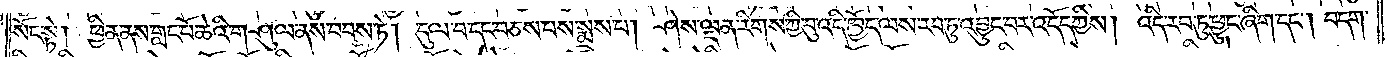སོང་སྟེ། ཕྱིན་ནས་གླང་པོ་ཆེའི་གཤུལ་ནས་བབས་ཏེ། དུལ་བ་དང་བཅས་པས་སྨྲས་པ། ཤེས་ལྡན་རིགས་ཀྱི་བུ་འདི་ཁྱོད་ལས་རབ་ཏུ་འབྱུང་བར་འདོད་ཀྱིས། འདི་རབ་ཏུ་ཕྱུང་ཞིག་དང༌། བདག་
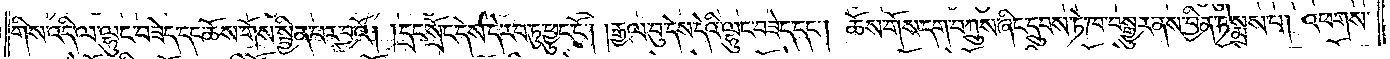གིས་འདི་ལ་ལྷུང་བཟེད་དང་ཆོས་གོས་སྦྱིན་པར་བྱའོ། །དྲང་སྲོང་དེས་དེ་རབ་ཏུ་ཕྱུང་ངོ༌། །རྒྱལ་བུ་དེས་དེའི་ལྷུང་བཟེད་དང༌། ཆོས་གོས་དག་བཀྲུས་ཞིང་དྲུབས་ཏེ་ཁ་བསྒྱུར་ནས་བྱིན་ཏེ་སྨྲས་པ། འཕགས་
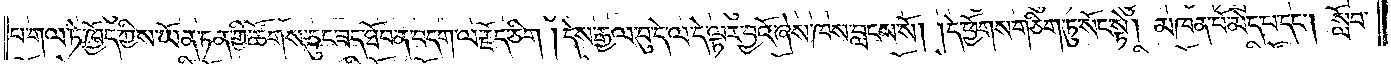པ་གལ་ཏེ་ཁྱོད་ཀྱིས་ཡོན་ཏན་གྱི་ཚོགས་ཅུང་ཟད་ཐོབ་ན་བདག་ལ་རྗོད་ཅིག །དེས་རྒྱལ་བུ་དེ་ལ་དེ་ལྟར་བྱའོ་ཞེས་ཁས་བླངས་སོ། །དེ་ཕྱོགས་གཅིག་ཏུ་སོང་སྟེ། མཁན་པོ་མེད་པ་དང༌། སློབ་
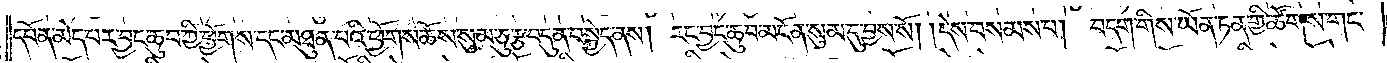དཔོན་མེད་པར་བྱང་ཆུབ་ཀྱི་ཕྱོགས་དང་མཐུན་པའི་ཕྱོགས་ཆོས་སུམ་ཅུ་རྩ་བདུན་བསྐྱེད་ནས། རང་བྱང་ཆུབ་མངོན་སུམ་དུ་བྱས་སོ། །དེས་བསམས་པ། བདག་གིས་ཡོན་ཏན་གྱི་ཚོགས་གང་
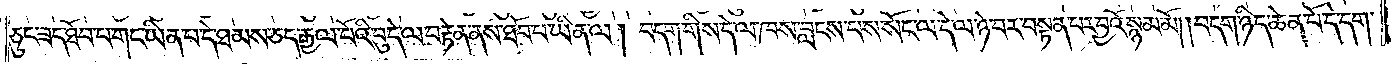ཅུང་ཟད་ཐོབ་པ་གང་ཡིན་པ་དེ་ཐམས་ཅད་རྒྱལ་པོའི་བུ་དེ་ལ་བརྟེན་ནས་ཐོབ་པ་ཡིན་ལ། བདག་གིས་དེ་ལ་ཁས་བླངས་པས་སོང་ལ་དེ་ལ་ཉེ་བར་བསྟན་པར་བྱའོ་སྙམ་མོ། །བདག་ཉིད་ཆེན་པོ་དེ་དག་
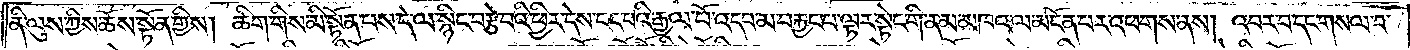ནི་ལུས་ཀྱིས་ཆོས་སྟོན་གྱིས། ཚིག་གིས་མི་སྟོན་པས་དེ་ལ་སྙིང་བརྩེ་བའི་ཕྱིར་དེས་ངང་པའི་རྒྱལ་པོ་འདབ་མ་བརྐྱང་པ་ལྟར་སྟེང་གི་ནམ་མཁའ་ལ་མངོན་པར་འཕགས་ནས། འབར་བ་དང་གསལ་བ་
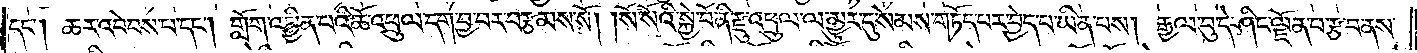དང༌། ཆར་འབེབས་པ་དང༌། གློག་འབྱིན་པའི་ཆོ་འཕྲུལ་དག་བྱ་བར་བརྩམས་སོ། །སོ་སོའི་སྐྱེ་བོ་ནི་རྫུ་འཕྲུལ་ལ་མྱུར་དུ་སེམས་གཏོད་པར་བྱེད་པ་ཡིན་པས། རྒྱལ་བུ་དེ་ཤིང་ལྗོན་པ་རྩ་བ་ནས་
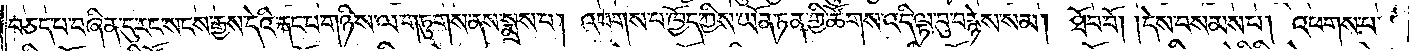བཅད་པ་བཞིན་དུ་རང་སངས་རྒྱས་དེའི་རྐང་པ་གཉིས་ལ་གཏུགས་ནས་སྨྲས་པ། འཕགས་པ་ཁྱོད་ཀྱིས་ཡོན་ཏན་གྱི་ཚོགས་འདི་ལྟ་བུ་བརྙེས་སམ། ཐོབ་བོ། །དེས་བསམས་པ། འཕགས་པ་
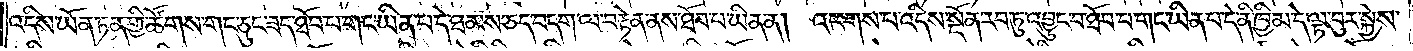འདིས་ཡོན་ཏན་གྱི་ཚོགས་གང་ཅུང་ཟད་ཐོབ་པ་གང་ཡིན་པ་དེ་ཐམས་ཅད་བདག་ལ་བརྟེན་ནས་ཐོབ་པ་ཡིན་ན། འཕགས་པ་འདིས་སྔོན་རབ་ཏུ་འབྱུང་བ་ཐོབ་པ་གང་ཡིན་པ་དེ་ནི་ཁྱིམ་དེ་ལྟ་བུར་སྐྱེས་
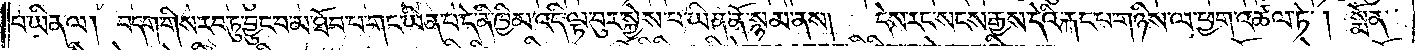པ་ཡིན་ལ། བདག་གིས་རབ་ཏུ་བྱུང་བ་མ་ཐོབ་པ་གང་ཡིན་པ་དེ་ནི་ཁྱིམ་འདི་ལྟ་བུར་སྐྱེས་པ་ཡིན་ནོ་སྙམ་ནས། དེས་རང་སངས་རྒྱས་དེའི་རྐང་པ་གཉིས་ལ་ཕྱག་འཚལ་ཏེ། སྨོན་
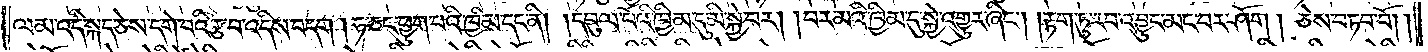ལམ་འདི་སྐད་ཅེས་དགེ་བའི་རྩ་བ་འདིས་བདག །ཧ་ཅང་ཕྱུག་པའི་ཁྱིམ་དང་ནི། །དབུལ་པོའི་ཁྱིམ་དུ་མི་སྐྱེ་བར། །བར་མའི་ཁྱིམ་དུ་སྐྱེ་འགྱུར་ཞིང༌། །རྟག་ཏུ་རབ་འབྱུང་མང་བར་ཤོག ། ཅེས་བཏབ་བོ། །
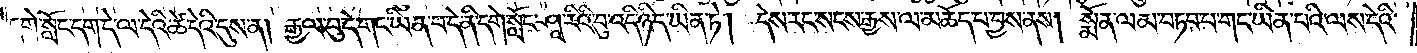དགེ་སློང་དག་དེ་ལ་དེའི་ཚེ་དེའི་དུས་ན། རྒྱལ་བུ་དེ་གང་ཡིན་པ་དེ་ནི་དགེ་སློང་ཤཱ་རིའི་བུ་འདི་ཉིད་ཡིན་ཏེ། དེས་རང་སངས་རྒྱས་ལ་མཆོད་པ་བྱས་ནས། སྨོན་ལམ་བཏབ་པ་གང་ཡིན་པའི་ལས་དེའི་
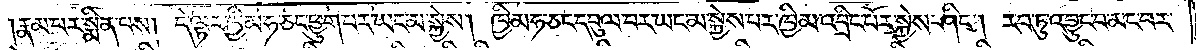རྣམ་པར་སྨིན་པས། དེ་ལྟར་ཁྱིམ་ཧ་ཅང་ཕྱུག་པར་ཡང་མ་སྐྱེས། ཁྱིམ་ཧ་ཅང་དབུལ་བར་ཡང་མ་སྐྱེས་པར་ཁྱིམ་འབྲིང་བོར་སྐྱེས་ཤིང༌། རབ་ཏུ་འབྱུང་བ་མང་བར་
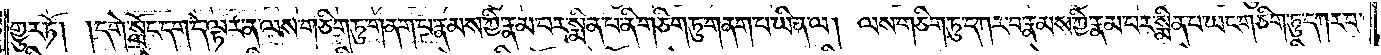གྱུར་ཏོ། །དགེ་སློང་དག་དེ་ལྟར་ན་ལས་གཅིག་ཏུ་གནག་པ་རྣམས་ཀྱི་རྣམ་པར་སྨིན་པ་ནི་གཅིག་ཏུ་གནག་པ་ཡིན་ལ། ལས་གཅིག་ཏུ་དཀར་བ་རྣམས་ཀྱི་རྣམ་པར་སྨིན་པ་ཡང་གཅིག་ཏུ་དཀར་བ་
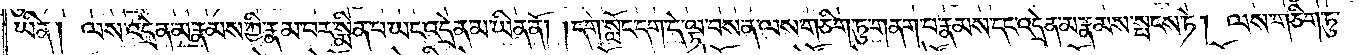ཡིན། ལས་འདྲེན་མ་རྣམས་ཀྱི་རྣམ་པར་སྨིན་པ་ཡང་འདྲེན་མ་ཡིན་ནོ། །དགེ་སློང་དག་དེ་ལྟ་བས་ན་ལས་གཅིག་ཏུ་གནག་པ་རྣམས་དང་འདྲེན་མ་རྣམས་སྤངས་ཏེ། ལས་གཅིག་ཏུ་
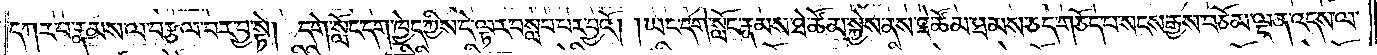དཀར་བ་རྣམས་ལ་བརྩལ་བར་བྱ་སྟེ། དགེ་སློང་དག་ཁྱེད་ཀྱིས་དེ་ལྟར་བསླབ་པར་བྱའོ། །ཡང་དགེ་སློང་རྣམས་ཐེ་ཚོམ་སྐྱེས་ནས་ཐེ་ཚོམ་ཐམས་ཅད་གཅོད་པ་སངས་རྒྱས་བཅོམ་ལྡན་འདས་ལ་
